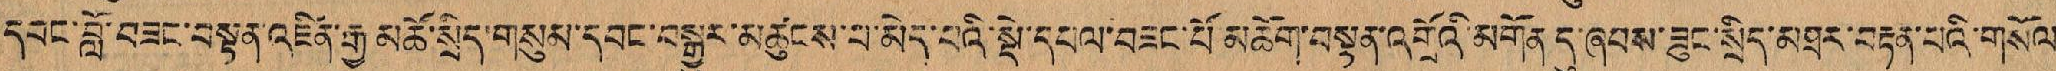དབང་བློ་བཟང་བསྟན་འཛིན་རྒྱ་མཚོ་སྲིད་གསུམ་དབང་བསྒྱུར་མཚུངས་པ་མེད་པའི་སྡེ་དཔལ་བཟང་པོ་མཆོག་བསྟན་འགྲོའི་མགོན་དུ་ཞབས་ཟུང་སྲིད་མཐར་བརྟན་པའི་གསོལ
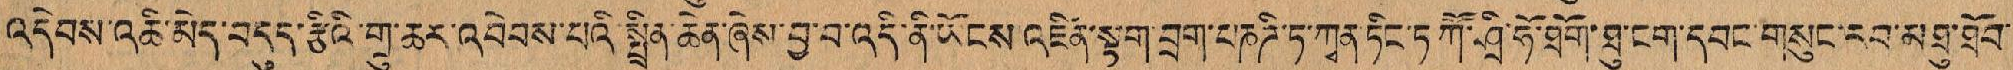འདེབས་འཆི་མེད་བདུད་རྩིའི་གྲུ་ཆར་འབེབས་པའི་སྤྲིན་ཆེན་ཞེས་བྱ་བ་འདི་ནི་ཡོངས་འཛིན་སྟག་བྲག་པཎཌི་ཏ་ཀྭན་ཏིང་ཏ་ཀཽ་ཤྲི་ཧོ་ཐོག་ཐུ་ངག་དབང་གསུང་རབ་མཐུ་ཐོབ་
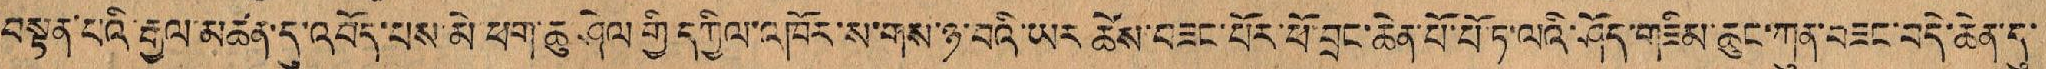བསྟན་པའི་རྒྱལ་མཚན་དུ་འབོད་པས་མེ་ཕག་ཆུ་ཤེལ་གྱི་དཀྱིལ་འཁོར་ས་གས་ཉ་བའི་ཡར་ཚེས་བཟང་པོར་ཕོ་བྲང་ཆེན་པོ་པོ་ཏ་ལའི་ཤོད་གཟིམ་ཆུང་ཀུན་བཟང་བདེ་ཆེན་དུ་
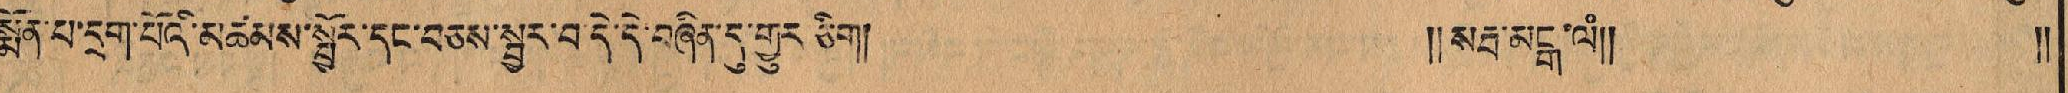སྨོན་པ་དྲག་པོའི་མཚམས་སྦྱོར་དང་བཅས་སྦྱར་བ་དེ་དེ་བཞིན་དུ་གྱུར་ཅིག། །།སརྦ་མངྒ་ལཾ།། །།
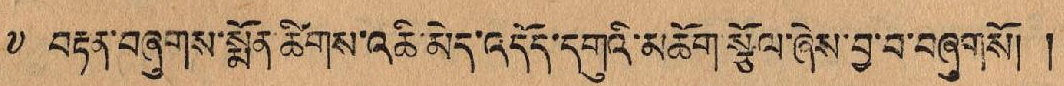༸ བརྟན་བཞུགས་སྨོན་ཚིགས་འཆི་མེད་འདོད་དགུའི་མཆོག་སྩོལ་ཞེས་བྱ་བ་བཞུགསོ། །
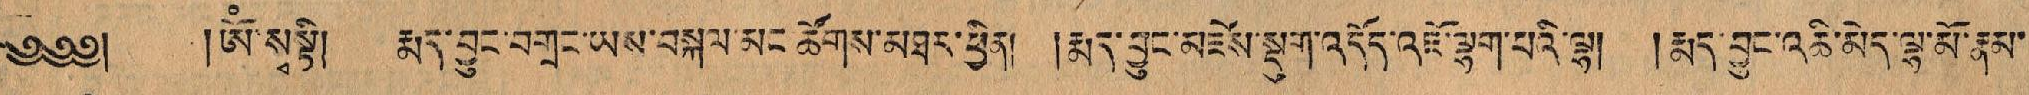༄༅༅། །ཨོཾསྭསྟི། རྨད་བྱུང་བགྲང་ཡས་བསྐལ་མང་ཚོགས་མཐར་ཕྱིན། །རྨད་བྱུང་མཛེས་སྡུག་འདོད་འཇོ་ལྷག་པའི་ལྟ། །རྨད་བྱུང་འཆི་མེད་ལྷ་མོ་རྣམ་
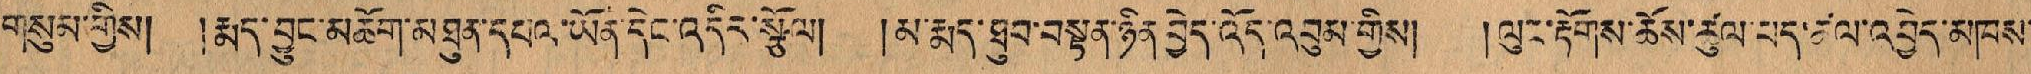གསུམ་གྱིས། །རྨད་བྱུང་མཆོག་མཐུན་དཔའ་ཡོན་དེང་འདིར་སྩོལ། །མ་རྨད་ཐུབ་བསྟན་ཉིན་བྱེད་འོད་འབུམ་གྱིས། །ལུང་རྟོགས་ཆོས་ཚུལ་པད་ཚལ་འབྱེད་མཁས་
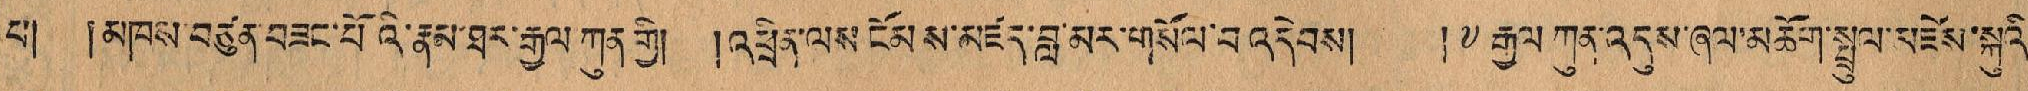པ། མཁས་བཙུན་བཟང་པོའི་རྣམ་ཐར་རྒྱལ་ཀུན་གྱི། །འཕྲིལ་ལས་ངོམས་མཛད་བླ་མར་གསོལ་བ འདེབས། །༸རྒྱལ་ཀུན་འདུས་ཞལ་མཆོག་སྤྲུལ་མཛེས་སྐུའི་
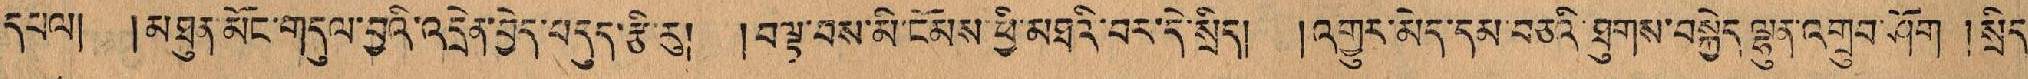དཔལ། །མཐུན་མོང་གདུལ་བྱའི་འདྲེན་བྱེད་བདུད་རྩི་རུ། །བལྟ་བས་མི་ངོམས་ཕྱི་མཐའི་བར་དེ་སྲིད། །འགྱུར་མེད་དམ་བཅའི་ཐུགས་བསྐྱེད་ལྷུན་འགྲུབ་ཤོག །སྲོད་
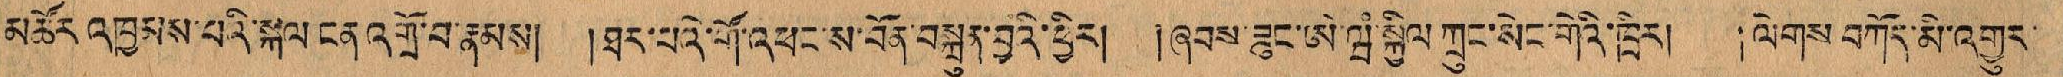མཚོར་འཁྱམས་པའི་སྐལ་ངན་འགྲོ་བ་རྣམས། །ཐར་པའི་གོ་འཕང་ས་བོན་བསྐྲུན་བྱའི་ཕྱིར། །ཞབས་ཟུར་ཨེ་ཝཾ་སྐྱིལ་ཀྲུང་སེང་གེའི་ཁྲིར། །ལེགས་བཀོད་མི་འགྱུར་
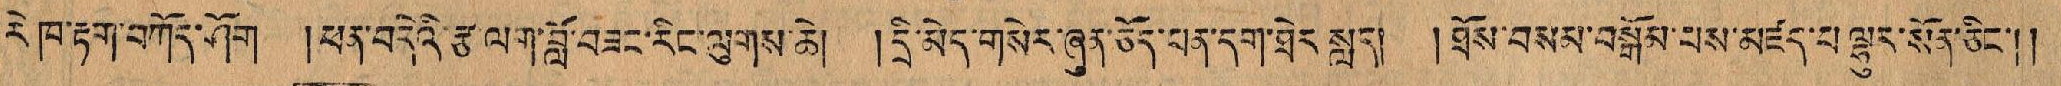རེ་ཁ་རྟག་བཀོད་ཤོག །ཕན་བདེའི་རྩ་ལག་བློ་བཟང་རིང་ལུགས་ཆེ། །དྲི་མེད་གསེར་ཞུན་ཅོད་པན་དག་ཐེར་སླད། །ཐོས་བསམ་བསྒོམ་པས་མཛད་པ ལྷུན་སོན་ཅིང་།།
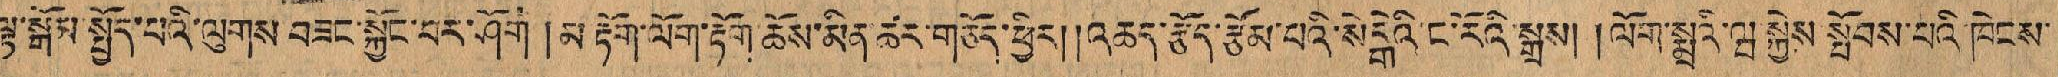ལྟ་སྒོས་སྤྱོད་པའི་ལུགས བཟང་སྐྱོང་བར་ཤོག །མ་རྟོག་ལོག་རྟོག་ཆོས་མིན་ཚར་གཅོད་ཕྱིར།།འཆད་རྩོད་རྩོམ་པའི་སེངྒེའི་ང་རོའི་སྒྲས། །ལོག་སྨྲའི་ཝ་སྐྱེས་སྤོབས་པའི ཁེངས་
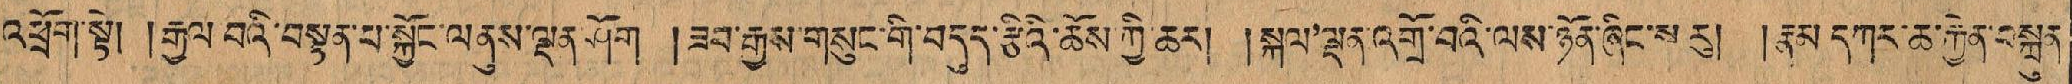འཕྲོག་སྟེ། །རྒྱལ་བའི་བསྟན་པ་སྐྱོང་ལནུས་ལྡན་ཤོག །ཟབ་རྒྱས་གསུང་གི་བདུད་རྩིའི་ཆིས་ཀྱི་ཆར། །སྐལ་ལྡན་འགྲོ་བའི་ལས་ཉོན་ཞིང་ས་རུ། །རྣམ་དཀར་ཆ་རྐྱེན་བསྐྲུན
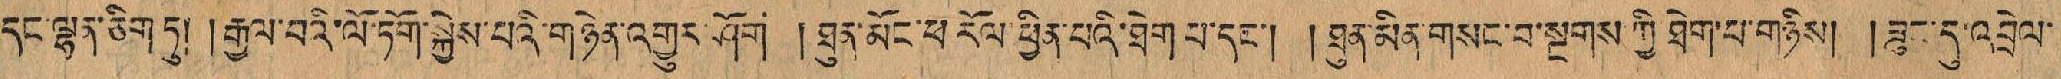དང་ལྷན་ཅིག་ཏུ། །རྒྱལ་བའི་ལོ་ཏོག་སྐྱེས་པའི་གཉེན་འགྱུར་ཤོག །ཐུན་མོང་ཕ་རོལ་ཕྱིན་པའི་ཐེག་པ་དང་། །ཐུན་མིན་གསང་བ་སྔགས ཀྱི་ཐེག་པ་གཉིས། །ཟུང་དུ་འབྲེལ་
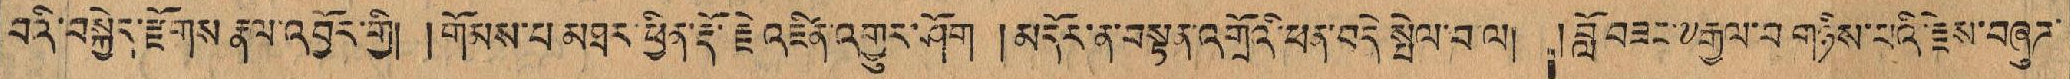བའི་བསྐྱེད་རྫོགས་རྣལ་འབྱོར་གྱི། །གོམས་པ་མཐར་ཕྱིན་རྡོ་རྗེ་འཛིན་འགྱུར་ཤོག །མདོར་ན་བསྟན་འགྲོའི་ཕན་བདེའི་སྤེལ་པ་ལ། །བློ་བཟང་༸རྒྱལ་བ་གཉིས་པའི་རྫས་བཞུཊ་
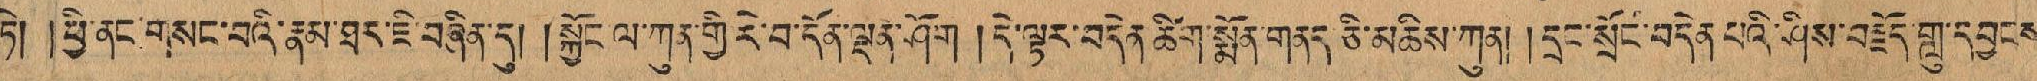ཏེ། །ཕྱི་ནང་གསང་བའི་རྣམ་ཐར་ཇི་བཞིན་དུ། །སྐྱོང་ལ་ཀུན་གྱི་རེ་བ་དོན་ལྡན་ཤོག །དེ་ལྟར་བདེན་ཚིག་སྨོན་གནད ཅི་མཆིས་ཀུན། །དྲང་སྲོང་བདེན་པའི་ཤིས་བརྗོད་གླུ་དབྱངས
